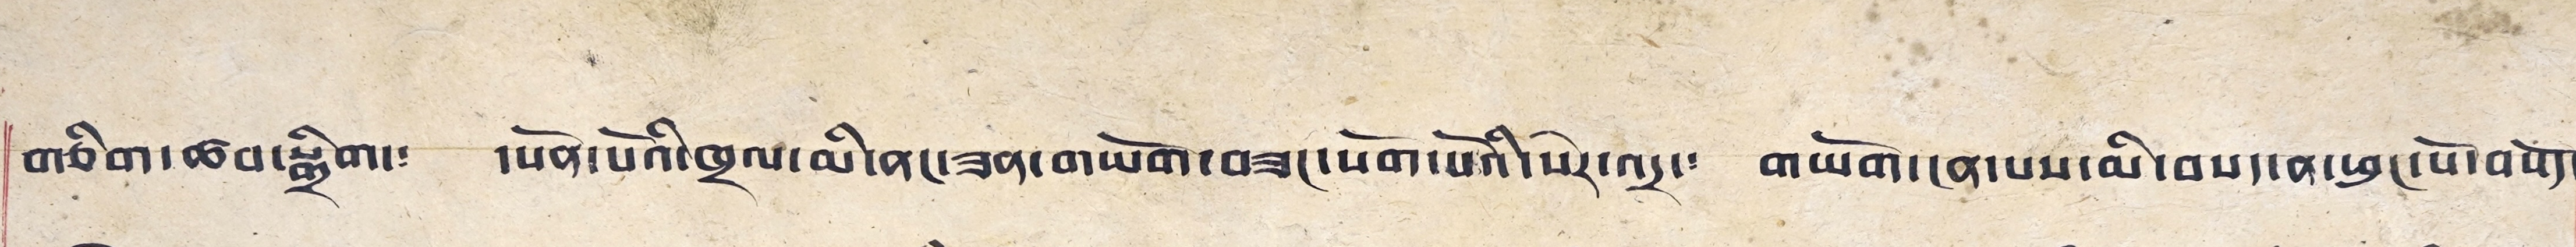བཅིག་ཚབ་སྒྲིག་༴ དཔོན་པོའི་ཁྲལ་མི་ནང་ཟན་གཡོག་བཟང་སོག་པོའི་སེར་འདྲ་༴ གཡོག་ངན་པས་མི་བསད་ཕུང་པོ་བསོད༴
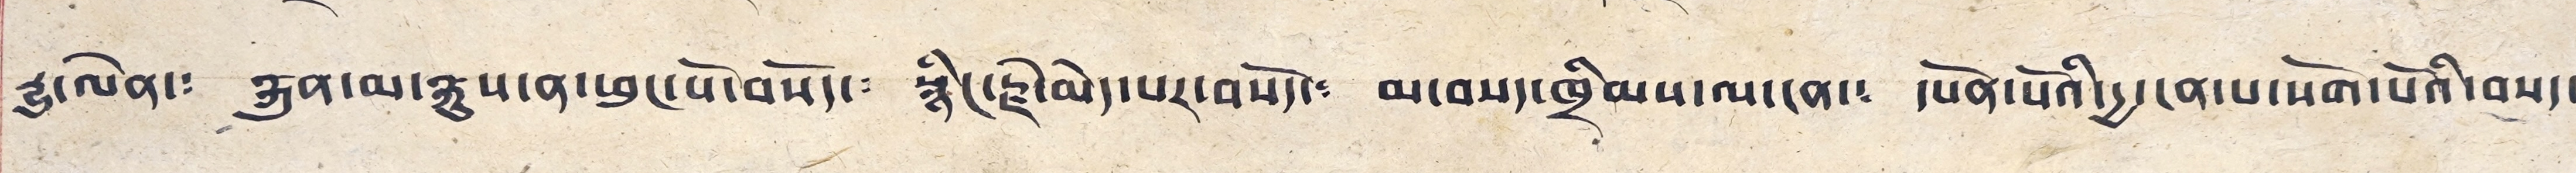རྒྱུ་ལེན་༴ རྐུན་མ་རྐུས་ན་ཕུང་པོ་བསོད་༴ སྙིང་རྗེ་མེད་པར་བསོད་༴ མ་བསད་ཁྲིམས་ལ་ངན་༴ དཔོན་པོའི་དྱ་ངན་པ་སོག་པོའི་བསད་
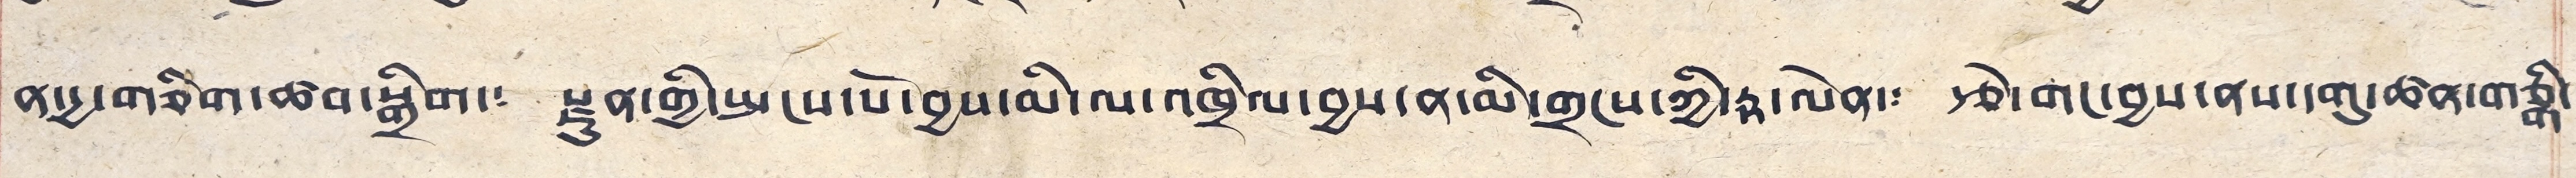ན་དྱ་གཅིག་ཆབ་སྒྲིག་༴ རྫུན་གྱི་སྤངས་པོ་བྱས་མི་ལ་འཁྲིལ་བྱས་ན་མི་གྲངས་ཀྱི་རྟ་ལེན་༴ རྩེ་གང་བྱས་ནས་དགུ་ཚན་གཅིྒ་
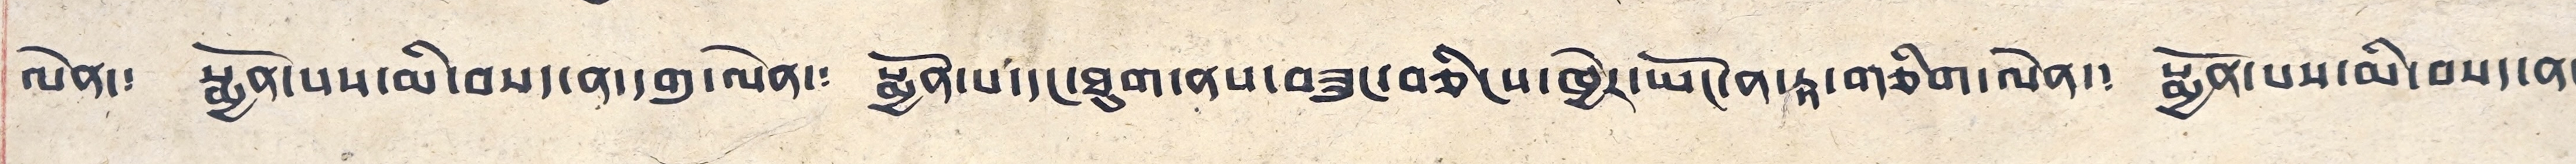ལེན་༴ སྨྱོན་པས་མི་བསད་ན་དགུ་ལེན་༴ སྨྱོན་པ་དང་ཐུག་ནས་བཟུང་བཅིངས་ཁྱེར་ཡོང་ན་རྟ་གཅིག་ལེན་༴ སྨྱོན་པས་མི་བསད་ན་
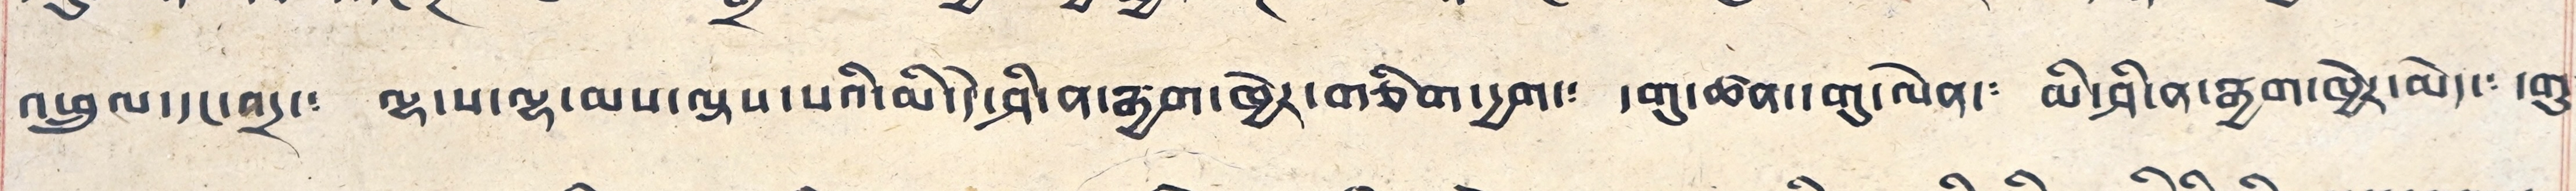འཕྲུལ་དང་བདྲ་༴ ལྷ་པ་ལྷ་མས་ལྟས་པའི་མི་དེ་ཤི་ན་རྒྱག་ཁྱེར་གཅིག་དྱག་༴ དགུ་ཚན་དགུ་ལེན་༴ མི་ཤི་ན་རྒྱག་ཁྱེར་མེད་༴ དགུ༴
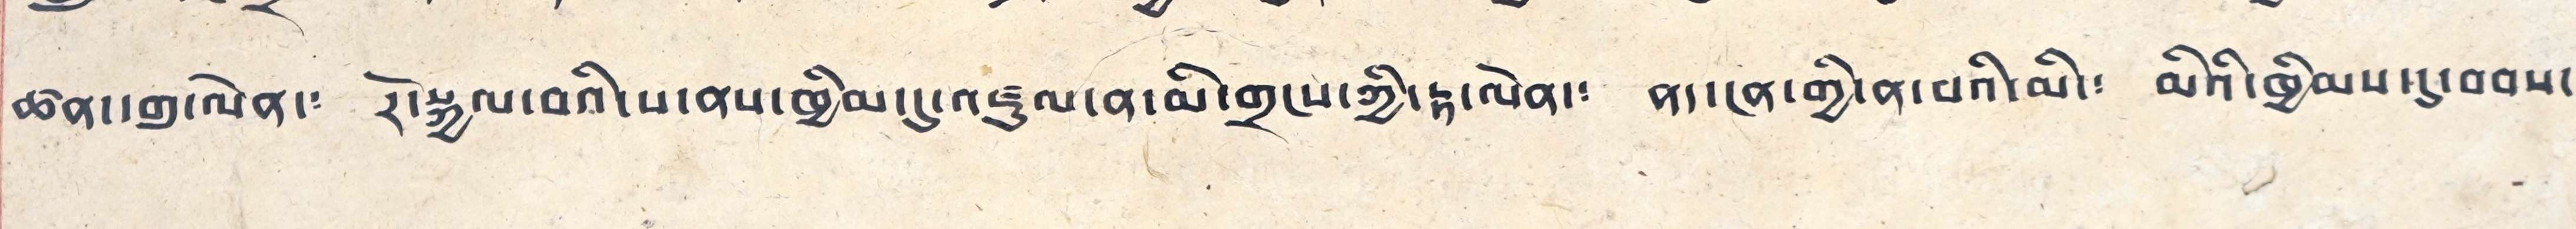ཚན་དགུ་ལེན་༴ རོ་སྐྱལ་བའི་ས་ནས་ཁྱིམ་དུ་འཛུལ་ན་མི་གྲངས་ཀྱི་རྟ་ལེན་༴ ནད་ངན་གྱི་ན་བའི་མི་༴ མིའི་ཁྱིམས་དུ་བབས་
